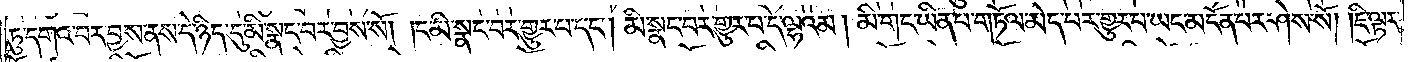ཏུ་དགའ་བར་བྱས་ནས་དེ་ཉིད་དུ་མི་སྣང་བར་བྱས་སོ། །ང་མི་སྣང་བར་གྱུར་པ་དང༌། མི་སྣང་བར་གྱུར་པ་དེ་ལྷའམ། མི་གང་ཡིན་པ་གཏོལ་མེད་པར་གྱུར་པ་ཡང་མངོན་པར་ཤེས་སོ། །ཇི་ལྟར་
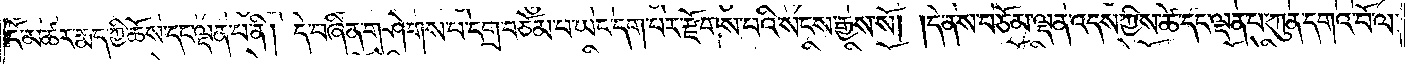ངོ་མཚར་རྨད་ཀྱི་ཆོས་དང་ལྡན་པ་ནི། དེ་བཞིན་གཤེགས་པ་དགྲ་བཅོམ་པ་ཡང་དག་པར་རྫོགས་པའི་སངས་རྒྱས་སོ། །དེ་ནས་བཅོམ་ལྡན་འདས་ཀྱིས་ཚེ་དང་ལྡན་པ་ཀུན་དགའ་བོ་ལ་
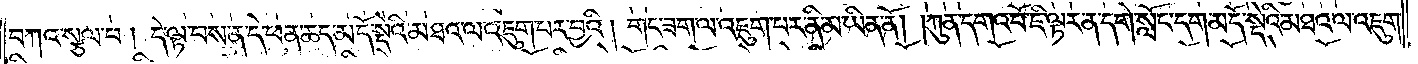བཀའ་སྩལ་པ། དེ་ལྟ་བས་ན་དེ་ཕན་ཆད་མདོ་སྡེའི་མཐའ་ལ་འཇུག་པར་བྱའི། གང་ཟག་ལ་འཇུག་པར་ནི་མ་ཡིན་ནོ། །ཀུན་དགའ་བོ་ཇི་ལྟར་ན་དགེ་སློང་དག་མདོ་སྡེའི་མཐའ་ལ་འཇུག་
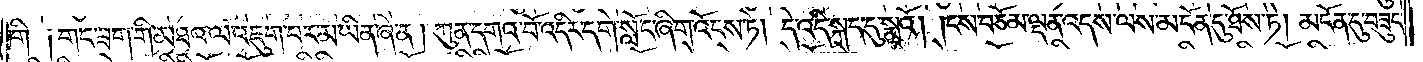གི །གང་ཟག་གི་མཐའ་ལ་འཇུག་པར་མ་ཡིན་ཞེ་ན། ཀུན་དགའ་བོ་འདིར་དགེ་སློང་ཞིག་འོངས་ཏེ། དེ་འདི་སྐད་དུ་སྨྲའོ། །ངས་བཅོམ་ལྡན་འདས་ལས་མངོན་དུ་ཐོས་ཏེ། མངོན་དུ་བཟུང་
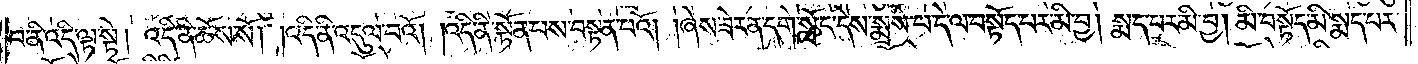བ་ནི་འདི་ལྟ་སྟེ། འདི་ནི་ཆོས་སོ། །འདི་ནི་འདུལ་བའོ། །འདི་ནི་སྟོན་པས་བསྟན་པའོ། །ཞེས་ཟེར་ན་དགེ་སློང་དེས་སྨྲས་པ་དེ་ལ་བསྟོད་པར་མི་བྱ། སྨད་པར་མི་བྱ། མི་བསྟོད་མི་སྨད་པར་
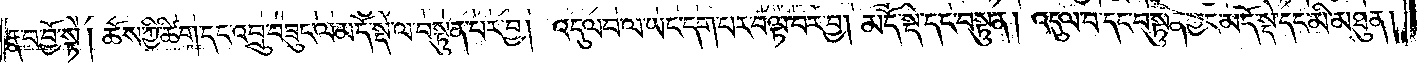རྣ་བ་བྱོ་སྟེ། ཆོས་ཀྱི་ཚིག་དང་འབྲུ་བཟུང་ལ་མདོ་སྡེ་ལ་བསྟུན་པར་བྱ། འདུལ་བ་ལ་ཡང་དག་པར་བལྟ་བར་བྱ། མདོ་སྡེ་དང་བསྟུན། འདུལ་བ་དང་བསྟུན་ཀྱང་མདོ་སྡེ་དང་མི་མཐུན།
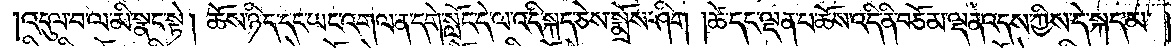འདུལ་བ་ལ་མི་སྣང་སྟེ། ཆོས་ཉིད་དང་ཡང་འགལ་ན་དགེ་སློང་དེ་ལ་འདི་སྐད་ཅེས་སྨྲོས་ཤིག །ཚེ་དང་ལྡན་པ་ཆོས་འདི་ནི་བཅོམ་ལྡན་འདས་ཀྱིས་དེ་སྐད་མ་
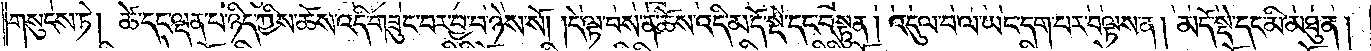གསུངས་ཏེ། ཚེ་དང་ལྡན་པ་ཉིད་ཀྱིས་ཆོས་འདི་གཟུང་བར་བྱ་བ་ཉེས་སོ། །དེ་ལྟ་བས་ན་ཆོས་འདི་མདོ་སྡེ་དང་བསྟུན། འདུལ་བ་ལ་ཡང་དག་པར་བལྟས་ན། མདོ་སྡེ་དང་མི་མཐུན།
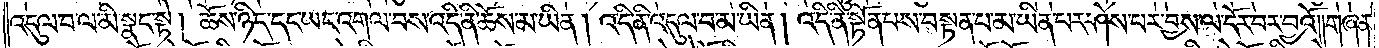འདུལ་བ་ལ་མི་སྣང་སྟེ། ཆོས་ཉིད་དང་ཡང་འགལ་བས་འདི་ནི་ཆོས་མ་ཡིན། འདི་ནི་འདུལ་བ་མ་ཡིན། འདི་ནི་སྟོན་པས་བསྟན་པ་མ་ཡིན་པར་ཤེས་པར་བྱས་ལ་དོར་བར་བྱའོ། །གཞན་
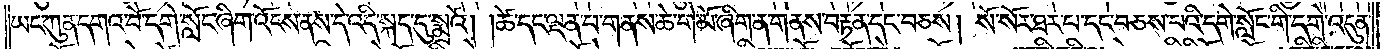ཡང་ཀུན་དགའ་བོ་དགེ་སློང་ཞིག་འོངས་ནས་དེ་འདི་སྐད་དུ་སྨྲའོ། །ཚེ་དང་ལྡན་པ་གནས་ཆེ་གེ་མོ་ཞིག་ན་གནས་བརྟན་དང་བཅས། སོ་སོར་ཐར་པ་དང་བཅས་པའི་དགེ་སློང་གི་དགེ་འདུན་
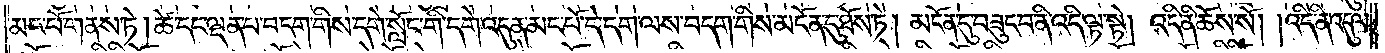མང་པོ་གནས་ཏེ། ཚེ་དང་ལྡན་པ་བདག་གིས་དགེ་སློང་གི་དགེ་འདུན་མང་པོ་དེ་དག་ལས་བདག་གིས་མངོན་དུ་ཐོས་ཏེ། མངོན་དུ་བཟུང་བ་ནི་འདི་ལྟ་སྟེ། འདི་ནི་ཆོས་སོ། །འདི་ནི་འདུལ་
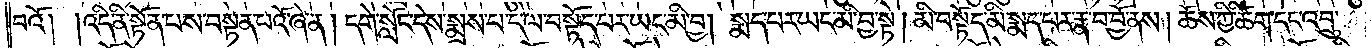བའོ། །འདི་ནི་སྟོན་པས་བསྟན་པའོ་ཞེ་ན། དགེ་སློང་དེས་སྨྲས་པ་དེ་ལ་བསྟོད་པར་ཡང་མི་བྱ། སྨད་པར་ཡང་མི་བྱ་སྟེ། མི་བསྟོད་མི་སྨད་པར་རྣ་བ་བྱོ་ནས། ཆོས་ཀྱི་ཚིག་དང་འབྲུ་
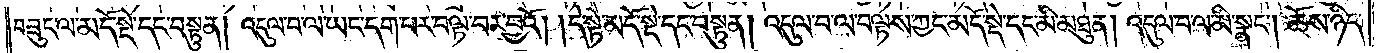བཟུང་ལ་མདོ་སྡེ་དང་བསྟུན། འདུལ་བ་ལ་ཡང་དག་པར་བལྟ་བར་བྱའོ། །དེ་སྟེ་མདོ་སྡེ་དང་བསྟུན། འདུལ་བ་ལ་བལྟས་ཀྱང་མདོ་སྡེ་དང་མི་མཐུན། འདུལ་བ་ལ་མི་སྣང༌། ཆོས་ཉིད་
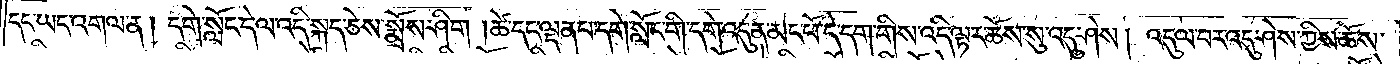དང་ཡང་འགལ་ན། དགེ་སློང་དེ་ལ་འདི་སྐད་ཅེས་སྨྲོས་ཤིག །ཚེ་དང་ལྡན་པ་དགེ་སློང་གི་དགེ་འདུན་མང་པོ་དེ་དག་གིས་འདི་ལྟར་ཆོས་སུ་འདུ་ཤེས། འདུལ་བར་འདུ་ཤེས་ཀྱིས་ཆོས་
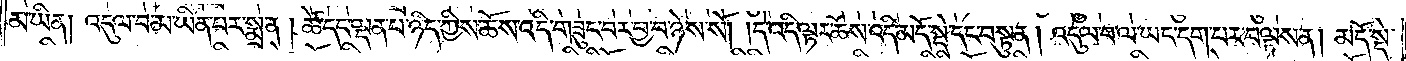མ་ཡིན། འདུལ་བ་མ་ཡིན་པར་སྨྲ་ན། ཚེ་དང་ལྡན་པ་ཉིད་ཀྱིས་ཆོས་འདི་གཟུང་བར་བྱ་བ་ཉེས་སོ། །དེ་འདི་ལྟར་ཆོས་འདི་མདོ་སྡེ་དང་བསྟུན། འདུལ་བ་ལ་ཡང་དག་པར་བལྟས་ན། མདོ་སྡེ་
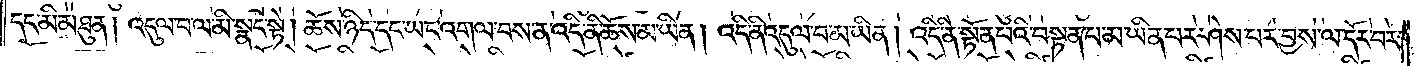དང་མི་མཐུན། འདུལ་བ་ལ་མི་སྣང་སྟེ། ཆོས་ཉིད་དང་ཡང་འགལ་བས་ན་འདི་ནི་ཆོས་མ་ཡིན། འདི་ནི་འདུལ་བ་མ་ཡིན། འདི་ནི་སྟོན་པའི་བསྟན་པ་མ་ཡིན་པར་ཤེས་པར་བྱས་ལ་དོར་བར་
